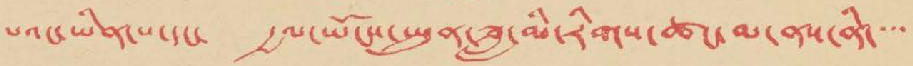པའང་ཡིན་པ་དང་ རྒྱལ་ཡོངས་སྤུན་ཟླ་མི་རིགས་ཚང་མ་ནས་ནི་་་་
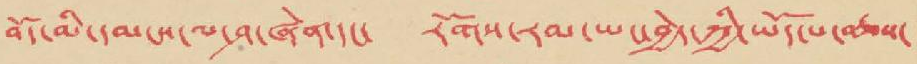བོད་མི་དམངས་ལ་ཤ་ཞེན་དང་ རོགས་རམ་ཡང་བྱེད་ཀྱི་ཡོད་པ་བཅས་
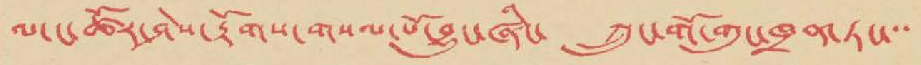ལ་ང་ཚོར་ཤེས་རྟོགས་གསལ་པོ་བྱུང་ཞིང་ ཀྲུང་གོ་གུང་ཁྲན་ཏང་་་
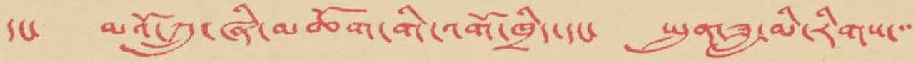དང་ མའོ་ཀྲུ་ཞི་མཆོག་གི་འགོ་ཁྲིད་དང་ སྤུན་ཟླ་མི་རིགས་་་
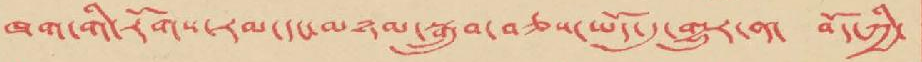ཁག་གི་རོགས་རམ་དང་མཉམ་སྒྲུབ་བཅས་ཡོད་དུ་གྱུར་ན་ བོད་ཀྱི་
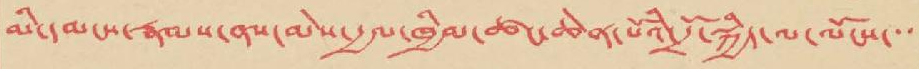མི་དམངས་རྣམས་ནས་མེས་རྒྱལ་ཁྱིམ་ཚང་ཆེན་པོའི་དྲོ་སྐྱིད་ལ་ལོངས་་་
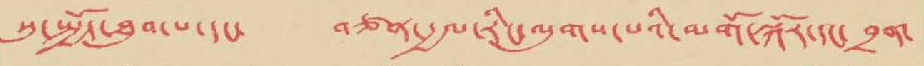སུ་སྤྱོད་ཐུབ་པ་དང་ བཙན་རྒྱལ་རིང་ལུགས་པའི་མགོ་སྐོར་དང་ བྲན་
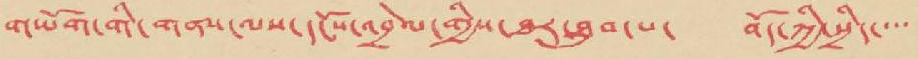གཡོག་གི་གནས་ལས་དངོས་འབྲེལ་གྱིས་ཐར་ཐུབ་པ་ བོད་ཀྱི་སྲིད་་་་
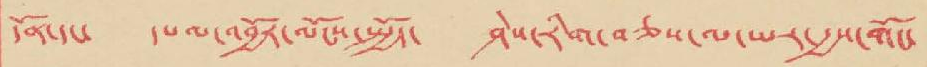དོན་དང་ དཔལ་འབྱོར་ལོངས་སྤྱོད་ ཤེས་རིག་བཅས་ལ་ཡར་རྒྱས་གོང་
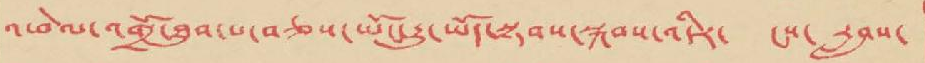འཕེལ་འགྲོ་ཐུབ་པ་བཅས་ཡོང་རྒྱུ་ཡོད་སྟབས་སྐབས་འདིར་ ངས་ རླབས་
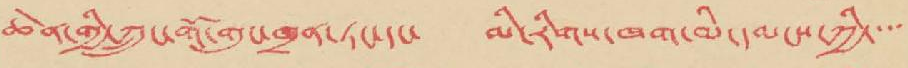ཆེན་གྱི་ཀྲུང་གོ་གུང་ཁྲན་ཏང་དང་ མི་རིགས་ཁག་མི་དམངས་ཀྱི་་་་
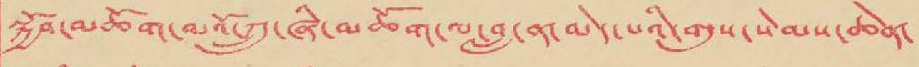སྐྱོབ་མཆོག་མའོ་ཀྲུ་ཞི་མཆོག་ལ་བླ་ན་མེད་པའི་གུས་སེམས་ཆེན་
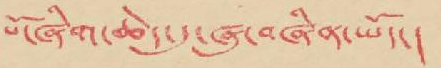པོ་ཞིག་ཆེད་དུ་ཞུ་བཞིན་ཡོད་།
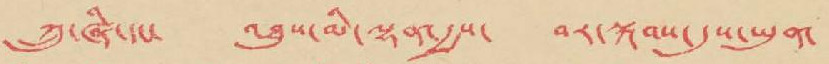ཀྲུ་ཞི་དང་ འཐུས་མི་ལྷན་རྒྱས་ བར་སྐབས་དུས་ཡུན་
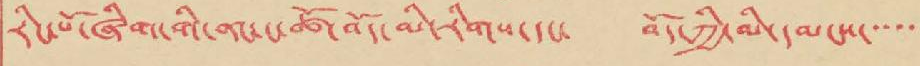རིང་པོ་ཞིག་གི་ནང་ང་ཚོ་བོད་རིགས་དང་ བོད་ཀྱི་མི་དམངས་་་་་
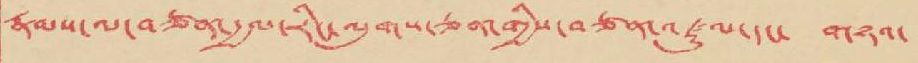རྣམས་ལ་བཙན་རྒྱལ་རིང་ལུགས་ཅན་གྱིས་བཙན་འཛུལ་དང་ གཉའ་
